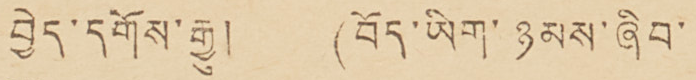བྱེད་དགོས་རྒྱུ། (བོད་ཡིག་ཉམས་ཞིབ་
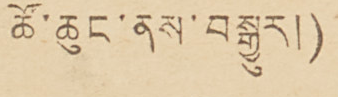ཚོ་ཆུང་ནས་བསྒྱུར།)
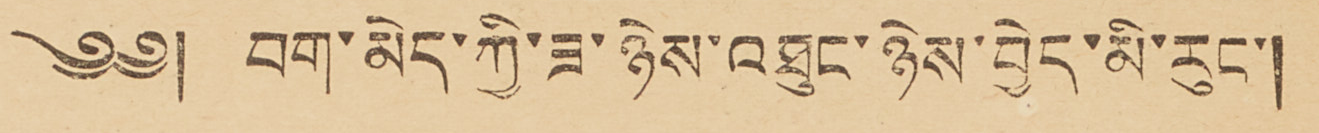༄༅། བག་མེད་ཀྱི་ཟ་ཉེས་འཐུང་ཉེས་བྱེད་མི་རུང་།
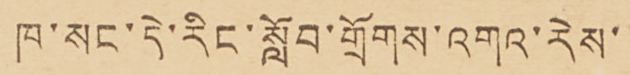ཁ་སང་དེ་རིང་སློབ་གྲོགས་འགའ་རེས་
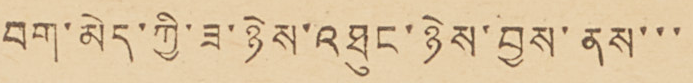བག་མེད་ཀྱི་ཟ་ཉེས་འཐུང་ཉེས་བྱས་ནས་་་
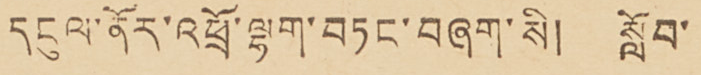དངུལ་ནོར་འཕྲོ་ལྷག་བཏང་བཞག་སི། སློབ་
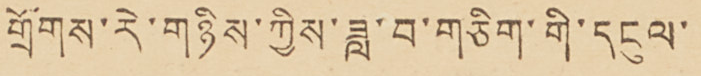གྲོགས་རེ་གཉིས་ཀྱིས་ཟླ་བ་གཅིག་གི་དངུལ་
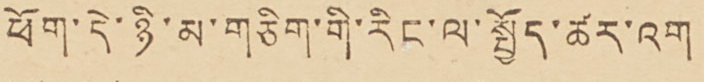ཕོག་དེ་ཉི་མ་གཅིག་གི་རིང་ལ་སྤྱོད་ཚར་འག
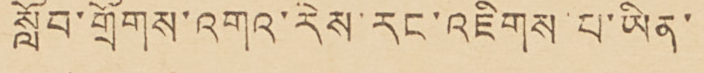སློབ་གྲོགས་འགའ་རེས་རང་འཇིགས་པ་ཡིན་
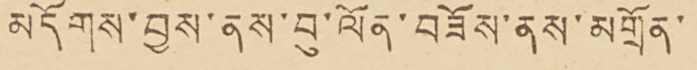མདོགས་བྱས་ནས་བུ་ལོན་བཟོས་ནས་མགྲོན་
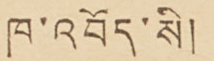ཁ་འབོད་སི།
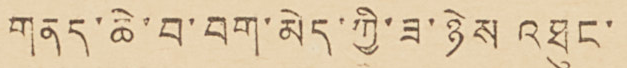གནས་ཆེ་བ་བག་མེད་ཀྱི་ཟ་ཉེས འཐུང་
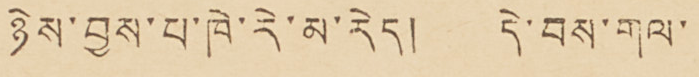ཉེས་བྱས་པ་ཁེ་རེ་མ་རེད། དེ་བས་གལ་
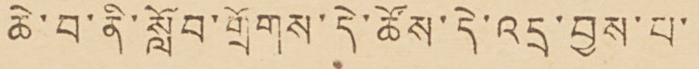ཆེ་བ་ནི་སློབ་གྲོགས་དེ་ཚོས་དེ་འདྲ་བྱས་པ་
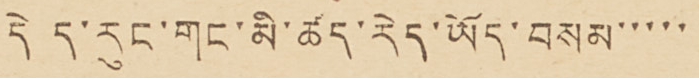དེ ད་རུང་གང་མི་ཚད་རེད་ཡོད་བསམ་་་་་
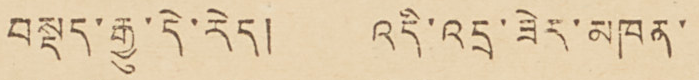བསྡད་རྒྱུ་དེ་རེད། འདི་འདྲ་ཟེར་མཁན་
